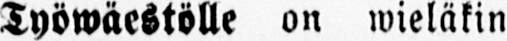Työwäestölle on wieläkin
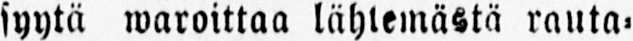syytä waroittaa lähtemästä rauta-
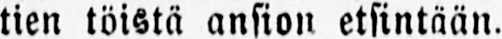tien töistä ansion etsintään.
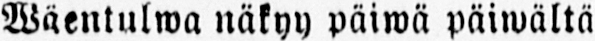Wäentulwa näkyy päiwä päiwältä
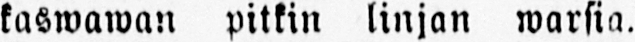kaswawan pitkin linjan warsia.
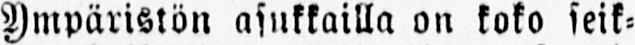Ympäristön asukkailla on koko seik-
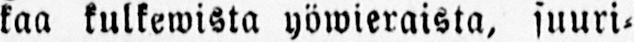kaa kulkewista yöwieraista, suuri-
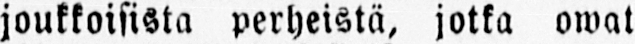joukkoisista perheistä, jotka owat
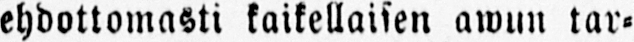ehdottomasti kaikellaisen awun tar-
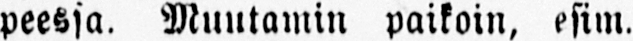peessa. Muutamin paikoin, esim.
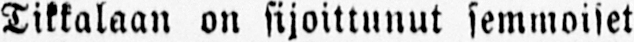Tikkalaan on sijoittunut semmoiset
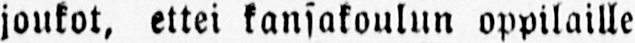joukot, ettei kansakoulun oppilaille
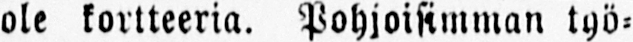ole kortteeria. Pohjoisimman työ-
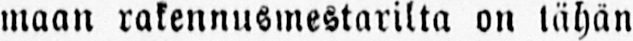maan rakennusmestarilta on tähän
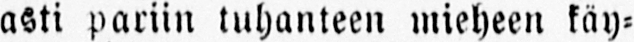asti pariin tuhanteen mieheen käy-
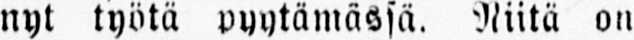nyt työtä pyytämässä. Niitä on
